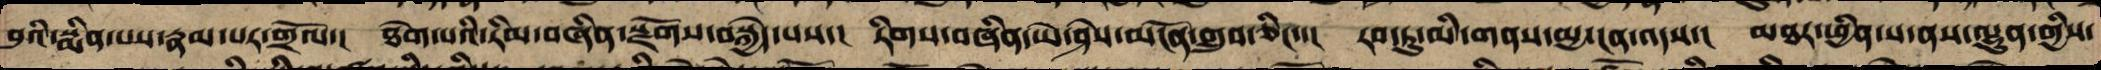བུའི་སྨིན་པས་རྣམ་པར་གྲོལ་། ཐེག་པའི་རིམ་བཞིན་སྫོགས་བསྐྱེད་པས་། རིགས་བཞིན་ཡེ་ཤེས་མངོན་གྲུབ་ཅིང་་། རབ་ཏུ་མི་གནས་མྱ་ངན་འདས་། མཐར་ཕྱིན་ས་ནས་ལྷུན་གྱིས་
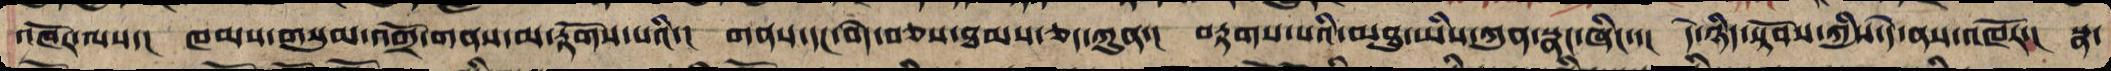འཁོར་ལས་། ཁམས་གསུམ་འགྲོ་གནས་མ་རྟོགས་པའི་། གནས་དང་བདེ་བཅས་ཐམས་ཅད་ཀུན་། བརྟགས་པའི་མཐུ་ཡིས་ཀུན་སྣང་ཞིང་་། དེ་ཉིད་སྟོབས་ཀྱིས་དེ་ནས་འཁོར་། སྣ་
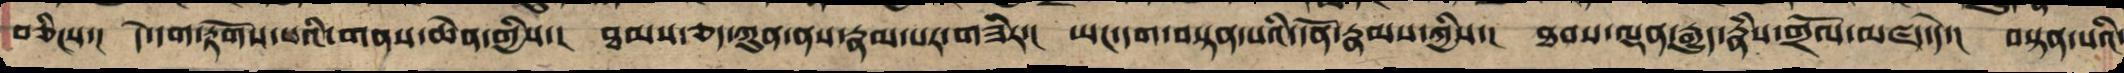བཅིངས་། དེ་དག་རྟོག་པའི་ནད་ཆེན་གྱིས་། ཐམས་ཅད་ཀུན་ནས་རྣམ་པར་གཟིར་། ཡང་དག་བསྟན་པའི་དོན་རྣམས་ཀྱིས་། ཐབས་ལྡན་རྒྱུད་རྣཾས་གྲོལ་མཛད་དེ་། བསྟན་པའི་
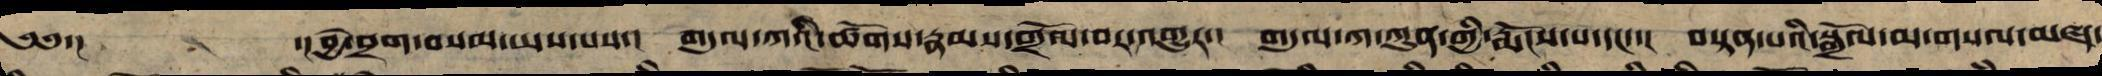༄༅་། ་།བྱེ་བྲག་བསམ་ཡས་པས་། གདུལ་ཀའི་ཚོགས་རྣམས་གྲོལ་བར་འགྱུར་། གདུལ་ཀ་ཀུན་ནི་རྨོངས་པ་དང་་། བསྟན་པའི་སྒྲོན་མ་གསལ་མཛད་
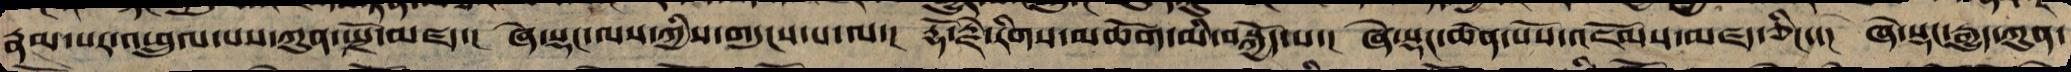རྣམ་པར་འཕྲུལ་པས་ཀུན་སྤྲོ་མཛད་། ཞེ་སྡང་ལས་ཀྱིས་གདུངས་པ་ལ་། རྡོ་རྗེ་རིགས་མཆོག་མི་བསྐྱོད་པ་། ཞེ་སྡང་ཆེན་པོས་འཇོམས་མཛད་ཅིང་་། ཞེ་སྡང་རྒྱུད་ཀུན་
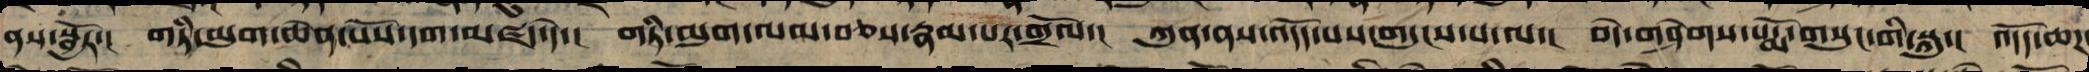ནས་སྦྱོར་། གཏི་མུག་ཆེན་པོས་དག་མཛད་དེ་། གཏི་མུག་ལམ་བཅས་རྣམ་པར་གྲོལ་། ཀུན་ནས་འདོད་པས་གདུངས་པ་ལ་། བདེ་གཤེགས་པདྨོ་གསུང་གི་སྐུ་། འདོད་ཆཌ
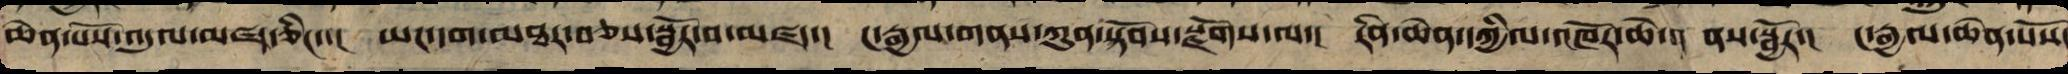ཆེན་པོས་འདུལ་མཛད་ཅིང་་། ཡང་དག་མཐར་བཅས་སྦྱོར་བ་མཛད་། ང་རྒྱལ་གནས་ཀུན་སྟོབས་སྫོགས་ལ་། རིན་ཆེན་དཀྱིལ་འཁོར་ཆེ་ནས་སྦྱོར་། ང་རྒྱལ་ཆེན་པོས་
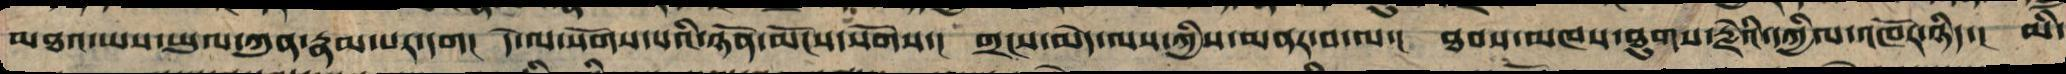མཐའ་ཡས་ཡུལ་ཀུན་རྣམ་པར་དག། དེ་ལ་སོགས་པའི་ཉོན་མོངས་སོགས་། གྲངས་མེད་ལས་ཀྱིས་མནར་བ་ལ་། ཐབས་མཁས་ཐུགས་རྗེའི་དཀྱིལ་འཁོར་ཉིད་། མི་
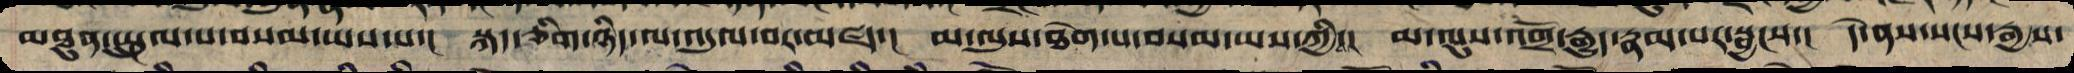མཐུན་སྤྲུལ་པ་བསམ་ཡས་པ་། སྐད་ཅིག་ཉིད་ལ་འདུལ་བར་མཛད་། མ་ལུས་ཐེག་པ་བསམ་ཡས་ཀྱིས་། མ་ལུས་འགྲོ་རྒྱུད་རྣམ་པར་སྦྱངས་། དེ་ནས་སངས་རྒྱས་
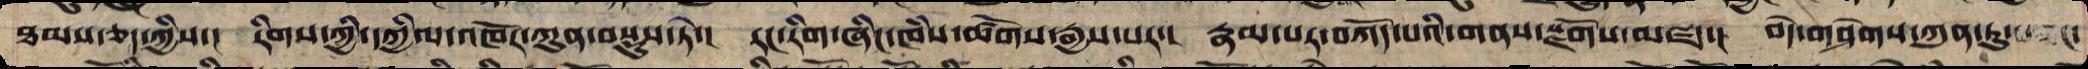ཐམས་ཅད་ཀྱིས་། རིགས་ཀྱི་དཀྱིལ་འཁོར་ཀུན་བསྡུས་ཏེ་། རང་རིག་ཞིང་ཁཾས་ཚོགས་རྒྱས་པར་། རྣམ་པར་བཀོད་པའི་གནས་སྫོགས་མཛད་། བདེ་གཤེགས་ཀུན་ཏུ་
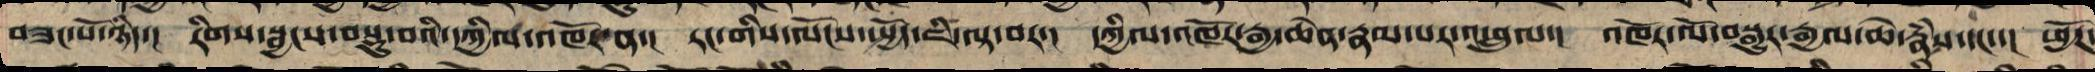བཟང་པོ་ཉིད་། རིགས་སྦྱངས་བསྡུ་བའི་དཀྱིལ་འཁོར་ན་། རང་གིས་ལོངས་སྤྱོད་ཇི་ལྟ་བར་། དཀྱིལ་འཁོར་རྒྱ་ཆེན་རྣམ་པར་འཕྲུལ་། འཁོར་ལོ་བསྒྱུར་རྒྱལ་ཆེ་རྣཾས་དང་་། ཕྱོཌ་
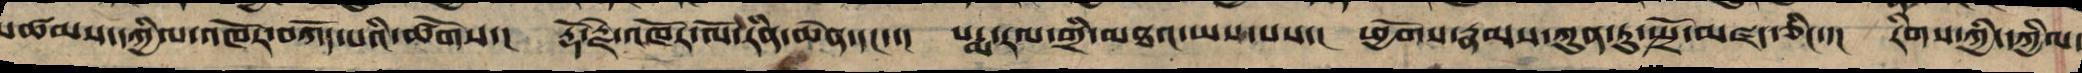མཚམས་དཀྱིལ་འཁོར་བཀོད་པའི་ཚོགས་། རྡོ་རྗེ་འཁོར་ལོ་རིན་ཆེན་དང་་། པདྨ་རལ་གྲི་མཐའ་ཡས་པས་། ཕྱོགས་རྣམས་ཀུན་ཏུ་སྤྲོ་མཛད་ཅིང་་། རིགས་ཀྱི་དཀྱིལ་
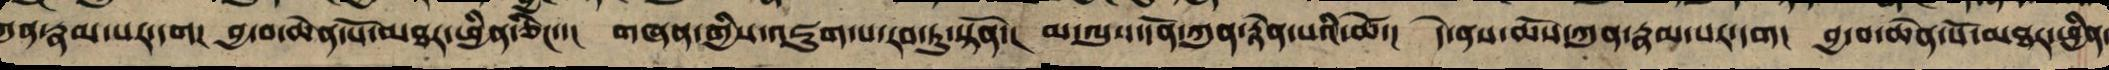ཀུན་རྣམ་པར་དག། བྱ་བ་ཆེན་པོ་མཐར་ཕྱིན་ཅིང་་། གཞན་གྱིས་འཇུག་པ་རབ་ཏུ་སྟོན་། མ་ལུས་དོན་ཀུན་རྟེན་པའི་ཚེ་། དེ་ནས་ཆོས་ཀུན་རྣམ་པར་དག་ བྱ་བ་ཆེན་པོ་མཐར་ཕྱིན་
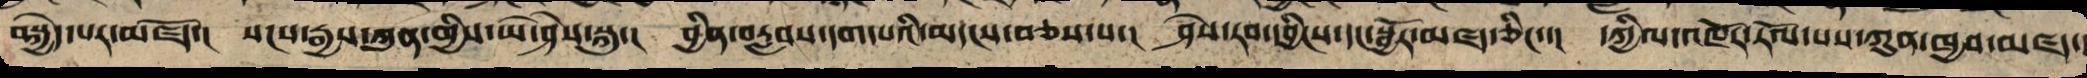བསྐྱེད་པར་མཛོད་། སངས་རྒྱས་ཀུན་གྱི་ཡེ་ཤེས་སྐུ་། བྱིན་་རླབས་དག་པའི་མདངས་བཅས་པ་། ཤེས་རབ་དབྱིངས་དང་སྦྱོར་མཛད་ཅིང་་། དཀྱིལ་འཁོར་རོལ་པས་ཀུན་ཁྱབ་མཛད་།
